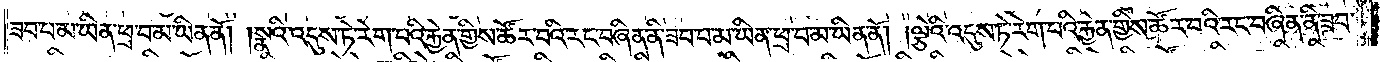ཟབ་པ་མ་ཡིན་ཕྲ་བ་མ་ཡིན་ནོ། །སྣའི་འདུས་ཏེ་རེག་པའི་རྐྱེན་གྱིས་ཚོར་བའི་རང་བཞིན་ནི་ཟབ་པ་མ་ཡིན་ཕྲ་བ་མ་ཡིན་ནོ། །ལྕེའི་འདུས་ཏེ་རེག་པའི་རྐྱེན་གྱིས་ཚོར་བའི་རང་བཞིན་ནི་ཟབ་
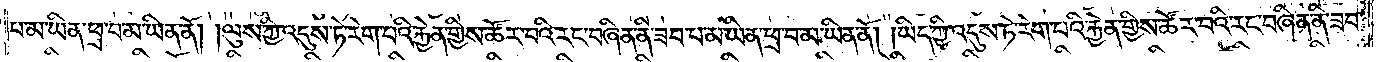པ་མ་ཡིན་ཕྲ་བ་མ་ཡིན་ནོ། །ལུས་ཀྱི་འདུས་ཏེ་རེག་པའི་རྐྱེན་གྱིས་ཚོར་བའི་རང་བཞིན་ནི་ཟབ་པ་མ་ཡིན་ཕྲ་བ་མ་ཡིན་ནོ། །ཡིད་ཀྱི་འདུས་ཏེ་རེག་པའི་རྐྱེན་གྱིས་ཚོར་བའི་རང་བཞིན་ནི་ཟབ་
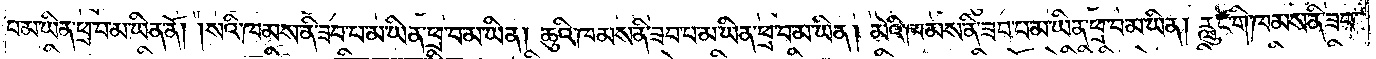པ་མ་ཡིན་ཕྲ་བ་མ་ཡིན་ནོ། །སའི་ཁམས་ནི་ཟབ་པ་མ་ཡིན་ཕྲ་བ་མ་ཡིན། ཆུའི་ཁམས་ནི་ཟབ་པ་མ་ཡིན་ཕྲ་བ་མ་ཡིན། མེའི་ཁམས་ནི་ཟབ་པ་མ་ཡིན་ཕྲ་བ་མ་ཡིན། རླུང་གི་ཁམས་ནི་ཟབ་
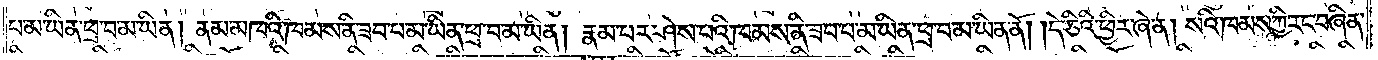པ་མ་ཡིན་ཕྲ་བ་མ་ཡིན། ནམ་མཁའི་ཁམས་ནི་ཟབ་པ་མ་ཡིན་ཕྲ་བ་མ་ཡིན། རྣམ་པར་ཤེས་པའི་ཁམས་ནི་ཟབ་པ་མ་ཡིན་ཕྲ་བ་མ་ཡིན་ནོ། །དེ་ཅིའི་ཕྱིར་ཞེ་ན། སའི་ཁམས་ཀྱི་རང་བཞིན་
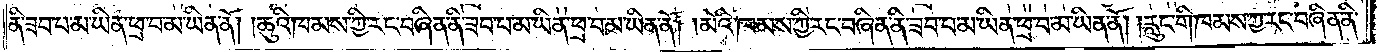ནི་ཟབ་པ་མ་ཡིན་ཕྲ་བ་མ་ཡིན་ནོ། །ཆུའི་ཁམས་ཀྱི་རང་བཞིན་ནི་ཟབ་པ་མ་ཡིན་ཕྲ་བ་མ་ཡིན་ནོ། །མེའི་ཁམས་ཀྱི་རང་བཞིན་ནི་ཟབ་པ་མ་ཡིན་ཕྲ་བ་མ་ཡིན་ནོ། །རླུང་གི་ཁམས་ཀྱི་རང་བཞིན་ནི་
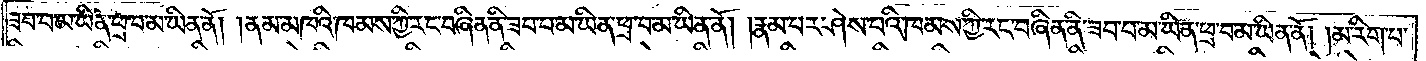ཟབ་པ་མ་ཡིན་ཕྲ་བ་མ་ཡིན་ནོ། །ནམ་མཁའི་ཁམས་ཀྱི་རང་བཞིན་ནི་ཟབ་པ་མ་ཡིན་ཕྲ་བ་མ་ཡིན་ནོ། །རྣམ་པར་ཤེས་པའི་ཁམས་ཀྱི་རང་བཞིན་ནི་ཟབ་པ་མ་ཡིན་ཕྲ་བ་མ་ཡིན་ནོ། །མ་རིག་པ་
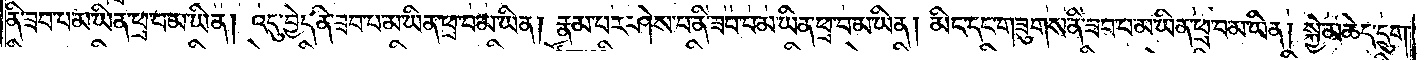ནི་ཟབ་པ་མ་ཡིན་ཕྲ་བ་མ་ཡིན། འདུ་བྱེད་ནི་ཟབ་པ་མ་ཡིན་ཕྲ་བ་མ་ཡིན། རྣམ་པར་ཤེས་པ་ནི་ཟབ་པ་མ་ཡིན་ཕྲ་བ་མ་ཡིན། མིང་དང་གཟུགས་ནི་ཟབ་པ་མ་ཡིན་ཕྲ་བ་མ་ཡིན། སྐྱེ་མཆེད་དྲུག་
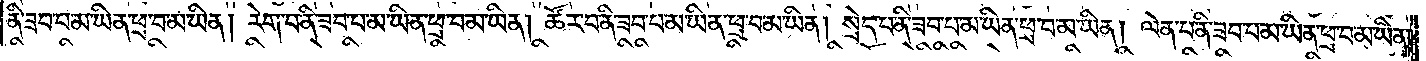ནི་ཟབ་པ་མ་ཡིན་ཕྲ་བ་མ་ཡིན། རེག་པ་ནི་ཟབ་པ་མ་ཡིན་ཕྲ་བ་མ་ཡིན། ཚོར་བ་ནི་ཟབ་པ་མ་ཡིན་ཕྲ་བ་མ་ཡིན། སྲེད་པ་ནི་ཟབ་པ་མ་ཡིན་ཕྲ་བ་མ་ཡིན། ལེན་པ་ནི་ཟབ་པ་མ་ཡིན་ཕྲ་བ་མ་ཡིན།
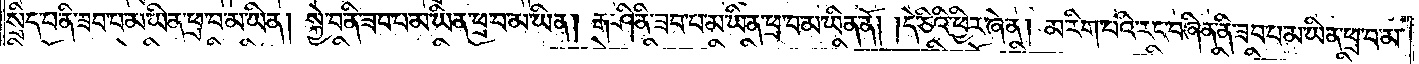སྲིད་པ་ནི་ཟབ་པ་མ་ཡིན་ཕྲ་བ་མ་ཡིན། སྐྱེ་བ་ནི་ཟབ་པ་མ་ཡིན་ཕྲ་བ་མ་ཡིན། རྒ་ཤི་ནི་ཟབ་པ་མ་ཡིན་ཕྲ་བ་མ་ཡིན་ནོ། །དེ་ཅིའི་ཕྱིར་ཞེ་ན། མ་རིག་པའི་རང་བཞིན་ནི་ཟབ་པ་མ་ཡིན་ཕྲ་བ་མ་
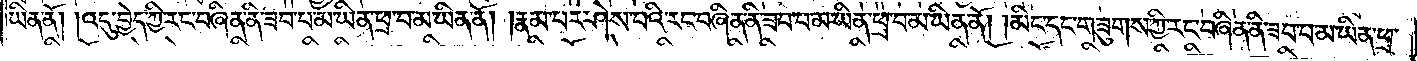ཡིན་ནོ། །འདུ་བྱེད་ཀྱི་རང་བཞིན་ནི་ཟབ་པ་མ་ཡིན་ཕྲ་བ་མ་ཡིན་ནོ། །རྣམ་པར་ཤེས་པའི་རང་བཞིན་ནི་ཟབ་པ་མ་ཡིན་ཕྲ་བ་མ་ཡིན་ནོ། །མིང་དང་གཟུགས་ཀྱི་རང་བཞིན་ནི་ཟབ་པ་མ་ཡིན་ཕྲ་
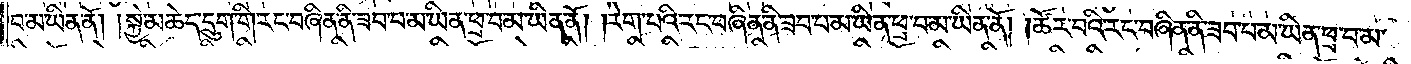བ་མ་ཡིན་ནོ། །སྐྱེ་མཆེད་དྲུག་གི་རང་བཞིན་ནི་ཟབ་པ་མ་ཡིན་ཕྲ་བ་མ་ཡིན་ནོ། །རེག་པའི་རང་བཞིན་ནི་ཟབ་པ་མ་ཡིན་ཕྲ་བ་མ་ཡིན་ནོ། །ཚོར་བའི་རང་བཞིན་ནི་ཟབ་པ་མ་ཡིན་ཕྲ་བ་མ་
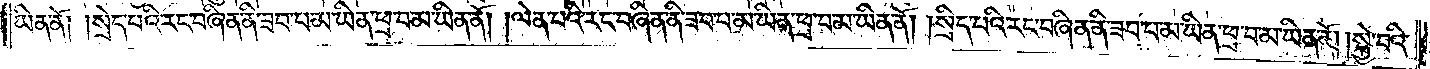ཡིན་ནོ༏ ༏སྲེད་པའི་རང་བཞིན་ནི་ཟབ་པ་མ་ཡིན་ཕྲ་བ་མ་ཡིན་ནོ། །ལེན་པའི་རང་བཞིན་ནི་ཟབ་པ་མ་ཡིན་ཕྲ་བ་མ་ཡིན་ནོ། །སྲིད་པའི་རང་བཞིན་ནི་ཟབ་པ་མ་ཡིན་ཕྲ་བ་མ་ཡིན་ནོ། །སྐྱེ་བའི་
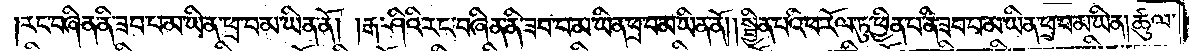རང་བཞིན་ནི་ཟབ་པ་མ་ཡིན་ཕྲ་བ་མ་ཡིན་ནོ། །རྒ་ཤིའི་རང་བཞིན་ནི་ཟབ་པ་མ་ཡིན་ཕྲ་བ་མ་ཡིན་ནོ། །སྦྱིན་པའི་ཕ་རོལ་ཏུ་ཕྱིན་པ་ནི་ཟབ་པ་མ་ཡིན་ཕྲ་བ་མ་ཡིན། ཚུལ་
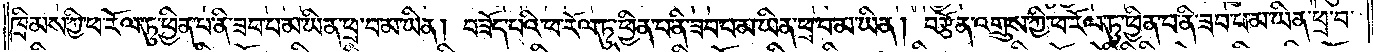ཁྲིམས་ཀྱི་ཕ་རོལ་ཏུ་ཕྱིན་པ་ནི་ཟབ་པ་མ་ཡིན་ཕྲ་བ་མ་ཡིན། བཟོད་པའི་ཕ་རོལ་ཏུ་ཕྱིན་པ་ནི་ཟབ་པ་མ་ཡིན་ཕྲ་བ་མ་ཡིན། བརྩོན་འགྲུས་ཀྱི་ཕ་རོལ་ཏུ་ཕྱིན་པ་ནི་ཟབ་པ་མ་ཡིན་ཕྲ་བ་
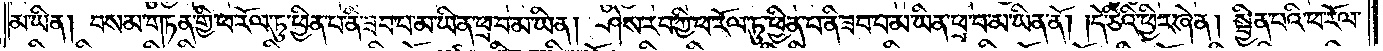མ་ཡིན། བསམ་གཏན་གྱི་ཕ་རོལ་ཏུ་ཕྱིན་པ་ནི་ཟབ་པ་མ་ཡིན་ཕྲ་བ་མ་ཡིན། ཤེས་རབ་ཀྱི་ཕ་རོལ་ཏུ་ཕྱིན་པ་ནི་ཟབ་པ་མ་ཡིན་ཕྲ་བ་མ་ཡིན་ནོ། །དེ་ཅིའི་ཕྱིར་ཞེ་ན། སྦྱིན་པའི་ཕ་རོལ་
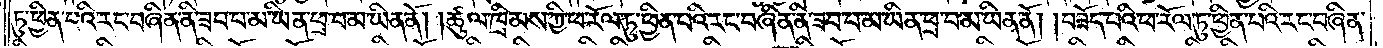ཏུ་ཕྱིན་པའི་རང་བཞིན་ནི་ཟབ་པ་མ་ཡིན་ཕྲ་བ་མ་ཡིན་ནོ། །ཚུལ་ཁྲིམས་ཀྱི་ཕ་རོལ་ཏུ་ཕྱིན་པའི་རང་བཞིན་ནི་ཟབ་པ་མ་ཡིན་ཕྲ་བ་མ་ཡིན་ནོ། །བཟོད་པའི་ཕ་རོལ་ཏུ་ཕྱིན་པའི་རང་བཞིན་
